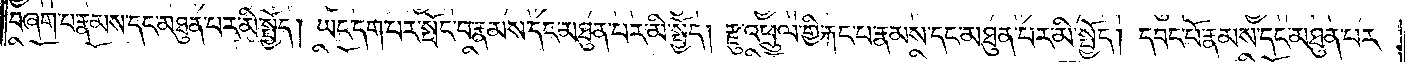བཞག་པ་རྣམས་དང་མཐུན་པར་མི་སྤྱོད། ཡང་དག་པར་སྤོང་བ་རྣམས་དང་མཐུན་པར་མི་སྤྱོད། རྫུ་འཕྲུལ་གྱི་རྐང་པ་རྣམས་དང་མཐུན་པར་མི་སྤྱོད། དབང་པོ་རྣམས་དང་མཐུན་པར་
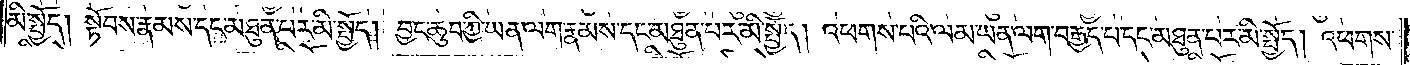མི་སྤྱོད། སྟོབས་རྣམས་དང་མཐུན་པར་མི་སྤྱོད། བྱང་ཆུབ་ཀྱི་ཡན་ལག་རྣམས་དང་མཐུན་པར་མི་སྤྱོད། འཕགས་པའི་ལམ་ཡན་ལག་བརྒྱད་པ་དང་མཐུན་པར་མི་སྤྱོད། འཕགས་
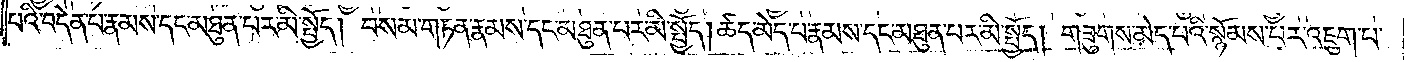པའི་བདེན་པ་རྣམས་དང་མཐུན་པར་མི་སྤྱོད། བསམ་གཏན་རྣམས་དང་མཐུན་པར་མི་སྤྱོད། ཚད་མེད་པ་རྣམས་དང་མཐུན་པར་མི་སྤྱོད། གཟུགས་མེད་པའི་སྙོམས་པར་འཇུག་པ་
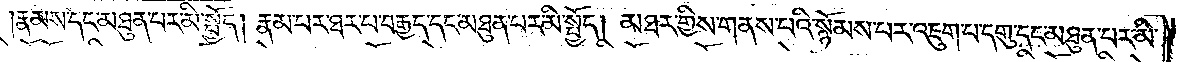རྣམས་དང་མཐུན་པར་མི་སྤྱོད། རྣམ་པར་ཐར་པ་བརྒྱད་དང་མཐུན་པར་མི་སྤྱོད། མཐར་གྱིས་གནས་པའི་སྙོམས་པར་འཇུག་པ་དགུ་དང་མཐུན་པར་མི་
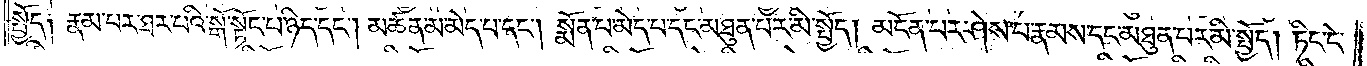སྤྱོད༑ རྣམ་པར་ཐར་པའི་སྒོ་སྟོང་པ་ཉིད་དང༌། མཚན་མ་མེད་པ་དང༌། སྨོན་པ་མེད་པ་དང་མཐུན་པར་མི་སྤྱོད། མངོན་པར་ཤེས་པ་རྣམས་དང་མཐུན་པར་མི་སྤྱོད། ཏིང་ངེ་
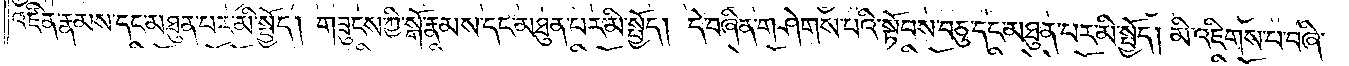འཛིན་རྣམས་དང་མཐུན་པར་མི་སྤྱོད། གཟུངས་ཀྱི་སྒོ་རྣམས་དང་མཐུན་པར་མི་སྤྱོད། དེ་བཞིན་གཤེགས་པའི་སྟོབས་བཅུ་དང་མཐུན་པར་མི་སྤྱོད། མི་འཇིགས་པ་བཞི་
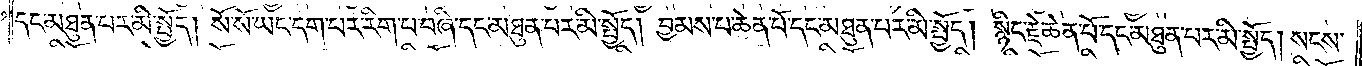དང་མཐུན་པར་མི་སྤྱོད། སོ་སོ་ཡང་དག་པར་རིག་པ་བཞི་དང་མཐུན་པར་མི་སྤྱོད། བྱམས་པ་ཆེན་པོ་དང་མཐུན་པར་མི་སྤྱོད། སྙིང་རྗེ་ཆེན་པོ་དང་མཐུན་པར་མི་སྤྱོད། སངས་
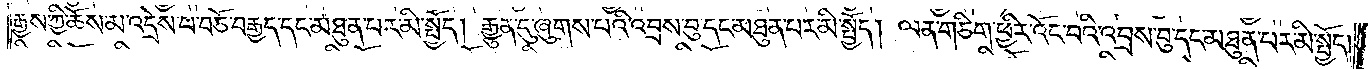རྒྱས་ཀྱི་ཆོས་མ་འདྲེས་པ་བཅོ་བརྒྱད་དང་མཐུན་པར་མི་སྤྱོད། རྒྱུན་དུ་ཞུགས་པའི་འབྲས་བུ་དང་མཐུན་པར་མི་སྤྱོད། ལན་གཅིག་ཕྱིར་འོང་བའི་འབྲས་བུ་དང་མཐུན་པར་མི་སྤྱོད།
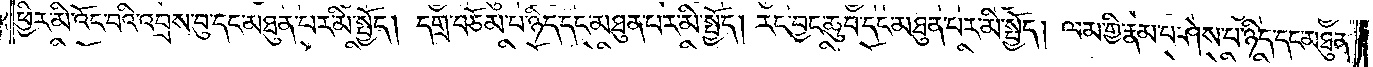ཕྱིར་མི་འོང་བའི་འབྲས་བུ་དང་མཐུན་པར་མི་སྤྱོད། དགྲ་བཅོམ་པ་ཉིད་དང་མཐུན་པར་མི་སྤྱོད། རང་བྱང་ཆུབ་དང་མཐུན་པར་མི་སྤྱོད། ལམ་གྱི་རྣམ་པ་ཤེས་པ་ཉིད་དང་མཐུན་
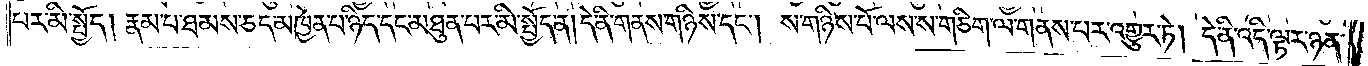པར་མི་སྤྱོད། རྣམ་པ་ཐམས་ཅད་མཁྱེན་པ་ཉིད་དང་མཐུན་པར་མི་སྤྱོད་ན། དེ་ནི་གནས་གཉིས་དང༌། ས་གཉིས་པོ་ལས་ས་གཅིག་ལ་གནས་པར་འགྱུར་ཏེ། དེ་ནི་འདི་ལྟར་ཉན་
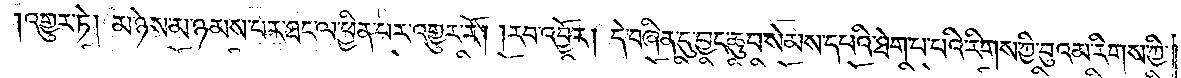འགྱུར་ཏེ། མ་ཉེས་མ་ཉམས་པར་ཐད་ལ་ཕྱིན་པར་འགྱུར་རོ། །རབ་འབྱོར། དེ་བཞིན་དུ་བྱང་ཆུབ་སེམས་དཔའི་ཐེག་པ་པའི་རིགས་ཀྱི་བུའམ་རིགས་ཀྱི་
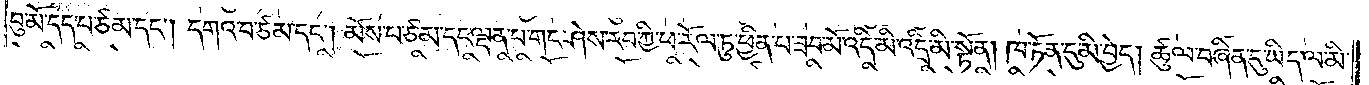བུ་མོ་དད་པ་ཙམ་དང༌། དགའ་བ་ཙམ་དང༌། མོས་པ་ཙམ་དང་ལྡན་པ་གང་ཤེས་རབ་ཀྱི་ཕ་རོལ་ཏུ་ཕྱིན་པ་ཟབ་མོ་འདི་མི་འདྲི་མི་སྟོན། ཁ་ཏོན་དུ་མི་བྱེད། ཚུལ་བཞིན་དུ་ཡིད་ལ་མི་
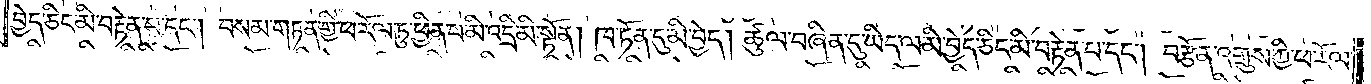བྱེད་ཅིང་མི་བརྟེན་པ་དང༌། བསམ་གཏན་གྱི་ཕ་རོལ་ཏུ་ཕྱིན་པ་མི་འདྲི་མི་སྟོན། ཁ་ཏོན་དུ་མི་བྱེད། ཚུལ་བཞིན་དུ་ཡིད་ལ་མི་བྱེད་ཅིང་མི་བརྟེན་པ་དང༌། བརྩོན་འགྲུས་ཀྱི་ཕ་རོལ་
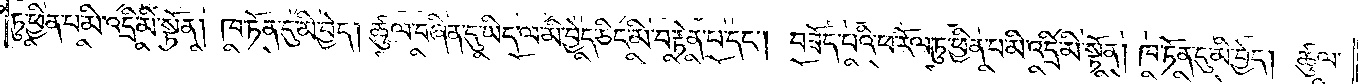ཏུ་ཕྱིན་པ་མི་འདྲི་མི་སྟོན། ཁ་ཏོན་དུ་མི་བྱེད། ཚུལ་བཞིན་དུ་ཡིད་ལ་མི་བྱེད་ཅིང་མི་བརྟེན་པ་དང༌། བཟོད་པའི་ཕ་རོལ་ཏུ་ཕྱིན་པ་མི་འདྲི་མི་སྟོན། ཁ་ཏོན་དུ་མི་བྱེད། ཚུལ་
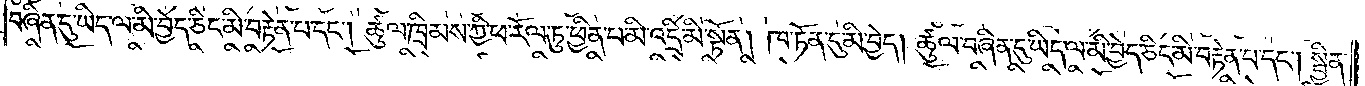བཞིན་དུ་ཡིད་ལ་མི་བྱེད་ཅིང་མི་བརྟེན་པ་དང༌། ཚུལ་ཁྲིམས་ཀྱི་ཕ་རོལ་ཏུ་ཕྱིན་པ་མི་འདྲི་མི་སྟོན། ཁ་ཏོན་དུ་མི་བྱེད། ཚུལ་བཞིན་དུ་ཡིད་ལ་མི་བྱེད་ཅིང་མི་བརྟེན་པ་དང༌། སྦྱིན་
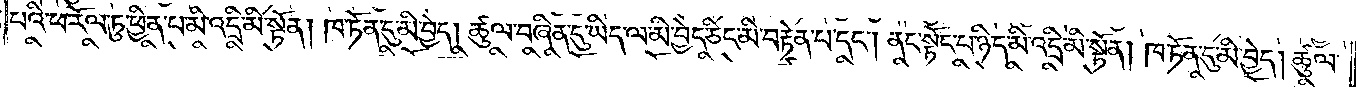པའི་ཕ་རོལ་ཏུ་ཕྱིན་པ་མི་འདྲི་མི་སྟོན། ཁ་ཏོན་དུ་མི་བྱེད། ཚུལ་བཞིན་དུ་ཡིད་ལ་མི་བྱེད་ཅིང་མི་བརྟེན་པ་དང༌། ནང་སྟོང་པ་ཉིད་མི་འདྲི་མི་སྟོན། ཁ་ཏོན་དུ་མི་བྱེད། ཚུལ་
